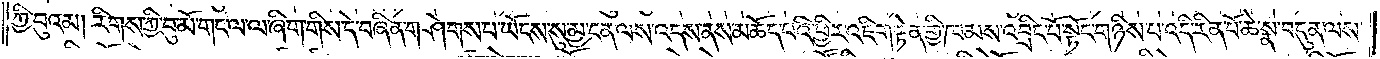ཀྱི་བུའམ། རིགས་ཀྱི་བུ་མོ་གང་ལ་ལ་ཞིག་གིས་དེ་བཞིན་གཤེགས་པ་ཡོངས་སུ་མྱ་ངན་ལས་འདས་ནས་མཆོད་པའི་ཕྱིར་འཇིག་རྟེན་གྱི་ཁམས་འབྲིང་པོ་སྟོང་གཉིས་པ་འདི་རིན་པོ་ཆེ་སྣ་བདུན་ལས་
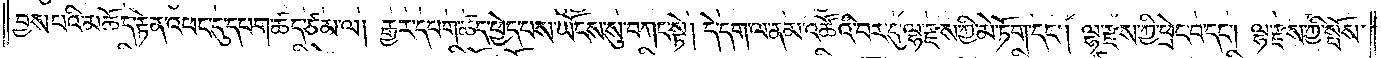བྱས་པའི་མཆོད་རྟེན་འཕང་དུ་དཔག་ཚད་ཙམ་ལ། རྒྱར་དཔག་ཚད་ཕྱེད་པས་ཡོངས་སུ་བཀང་སྟེ། དེ་དག་ལ་ནམ་འཚོའི་བར་དུ་ལྷ་རྫས་ཀྱི་མེ་ཏོག་དང༌། ལྷ་རྫས་ཀྱི་ཕྲེང་བ་དང༌། ལྷ་རྫས་ཀྱི་སྤོས་
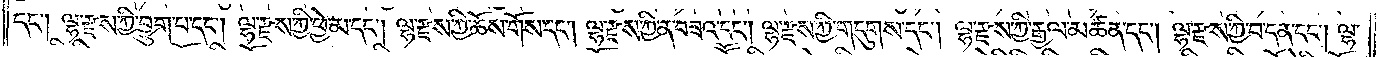དང༌། ལྷ་རྫས་ཀྱི་བྱུག་པ་དང༌། ལྷ་རྫས་ཀྱི་ཕྱེ་མ་དང༌། ལྷ་རྫས་ཀྱི་ཆོས་གོས་དང༌། ལྷ་རྫས་ཀྱི་ན་བཟའ་དང༌། ལྷ་རྫས་ཀྱི་གདུགས་དང༌། ལྷ་རྫས་ཀྱི་རྒྱལ་མཚན་དང༌། ལྷ་རྫས་ཀྱི་བ་དན་དང༌། ལྷ་
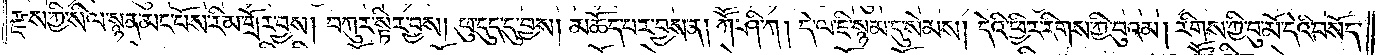རྫས་ཀྱི་སིལ་སྙན་མང་པོས་རིམ་གྲོར་བྱས། བཀུར་སྟིར་བྱས། ཕུ་དུད་དུ་བྱས། མཆོད་པར་བྱས་ན། ཀཽ་ཤི་ཀ། དེ་ལ་ཇི་སྙམ་དུ་སེམས། དེའི་ཕྱིར་རིགས་ཀྱི་བུའམ། རིགས་ཀྱི་བུ་མོ་དེའི་བསོད་
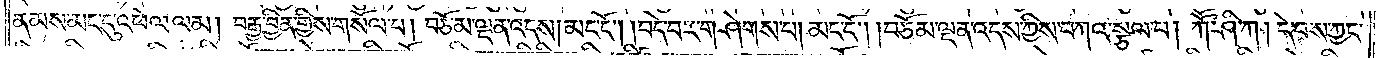ནམས་མང་དུ་འཕེལ་ལམ། བརྒྱ་བྱིན་གྱིས་གསོལ་པ། བཅོམ་ལྡན་འདས། མང་ངོ༌། །བདེ་བར་གཤེགས་པ། མང་ངོ༌། །བཅོམ་ལྡན་འདས་ཀྱིས་བཀའ་སྩལ་པ། ཀཽ་ཤི་ཀ། དེ་བས་ཀྱང་
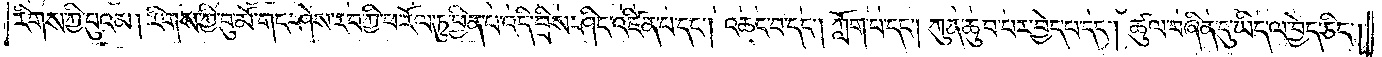རིགས་ཀྱི་བུའམ། རིགས་ཀྱི་བུ་མོ་གང་ཤེས་རབ་ཀྱི་ཕ་རོལ་ཏུ་ཕྱིན་པ་འདི་བྲིས་ཤིང་འཛིན་པ་དང༌། འཆང་བ་དང༌། ཀློག་པ་དང༌། ཀུན་ཆུབ་པར་བྱེད་པ་དང༌། ཚུལ་བཞིན་དུ་ཡིད་ལ་བྱེད་ཅིང༌།
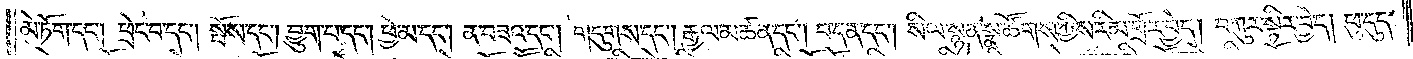མེ་ཏོག་དང༌། ཕྲེང་བ་དང༌། སྤོས་དང༌། བྱུག་པ་དང༌། ཕྱེ་མ་དང༌། ན་བཟའ་དང༌། གདུགས་དང༌། རྒྱལ་མཚན་དང༌། བ་དན་དང༌། སིལ་སྙན་སྣ་ཚོགས་ཀྱིས་རིམ་གྲོར་བྱེད། བཀུར་སྟིར་བྱེད། ཕུ་དུད་
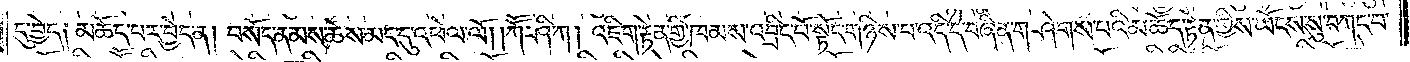དུ་བྱེད། མཆོད་པར་བྱེད་ན། བསོད་ནམས་ཆེས་མང་དུ་འཕེལ་ལོ། །ཀཽ་ཤི་ཀ། འཇིག་རྟེན་གྱི་ཁམས་འབྲིང་པོ་སྟོང་གཉིས་པ་འདི་དེ་བཞིན་གཤེགས་པའི་མཆོད་རྟེན་གྱིས་ཡོངས་སུ་བཀང་བ་
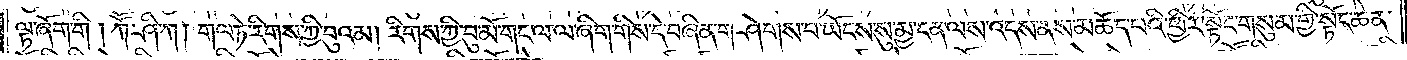ལྟ་ཞོག་གི །ཀཽ་ཤི་ཀ། གལ་ཏེ་རིགས་ཀྱི་བུའམ། རིགས་ཀྱི་བུ་མོ་གང་ལ་ལ་ཞིག་གིས་དེ་བཞིན་གཤེགས་པ་ཡོངས་སུ་མྱ་ངན་ལས་འདས་ནས་མཆོད་པའི་ཕྱིར་སྟོང་གསུམ་གྱི་སྟོང་ཆེན་
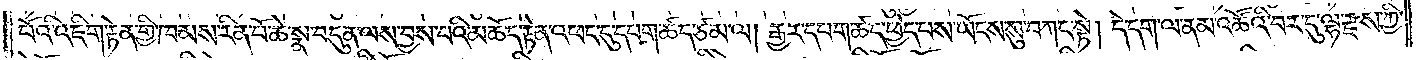པོའི་འཇིག་རྟེན་གྱི་ཁམས་རིན་པོ་ཆེ་སྣ་བདུན་ལས་བྱས་པའི་མཆོད་རྟེན་འཕང་དུ་དཔག་ཚད་ཙམ་ལ། རྒྱར་དཔག་ཚད་ཕྱེད་པས་ཡོངས་སུ་བཀང་སྟེ། དེ་དག་ལ་ནམ་འཚོའི་བར་དུ་ལྷ་རྫས་ཀྱི་
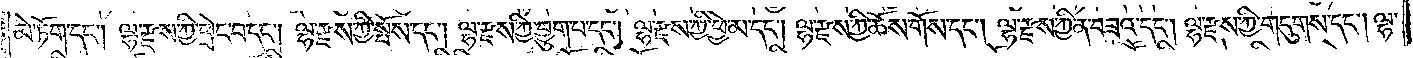མེ་ཏོག་དང༌། ལྷ་རྫས་ཀྱི་ཕྲེང་བ་དང༌། ལྷ་རྫས་ཀྱི་སྤོས་དང༌། ལྷ་རྫས་ཀྱི་བྱུག་པ་དང༌། ལྷ་རྫས་ཀྱི་ཕྱེ་མ་དང༌། ལྷ་རྫས་ཀྱི་ཆོས་གོས་དང༌། ལྷ་རྫས་ཀྱི་ན་བཟའ་དང༌། ལྷ་རྫས་ཀྱི་གདུགས་དང༌། ལྷ་
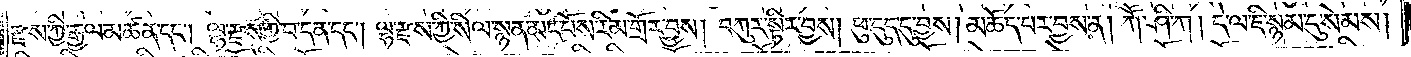རྫས་ཀྱི་རྒྱལ་མཚན་དང༌། ལྷ་རྫས་ཀྱི་བ་དན་དང༌། ལྷ་རྫས་ཀྱི་སིལ་སྙན་མང་པོས་རིམ་གྲོར་བྱས། བཀུར་སྟིར་བྱས། ཕུ་དུད་དུ་བྱས། མཆོད་པར་བྱས་ན། ཀཽ་ཤི་ཀ། དེ་ལ་ཇི་སྙམ་དུ་སེམས།
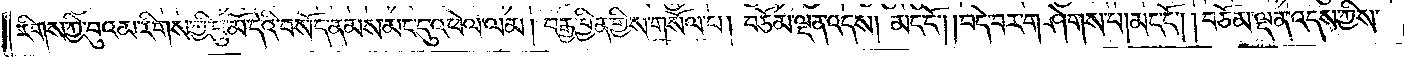རིགས་ཀྱི་བུའམ་རིགས་ཀྱི་བུ་མོ་དེའི་བསོད་ནམས་མང་དུ་འཕེལ་ལམ། བརྒྱ་བྱིན་གྱིས་གསོལ་པ། བཅོམ་ལྡན་འདས། མང་ངོ༌། །བདེ་བར་གཤེགས་པ། མང་ངོ༌། །བཅོམ་ལྡན་འདས་ཀྱིས།
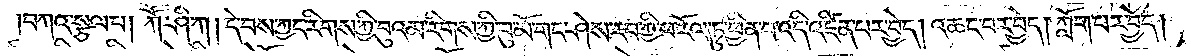བཀའ་སྩལ་པ། ཀཽ་ཤི་ཀ། དེ་བས་ཀྱང་རིགས་ཀྱི་བུ་འམ་རིགས་ཀྱི་བུ་མོ་གང་ཤེས་རབ་ཀྱི་ཕ་རོལ་ཏུ་ཕྱིན་པ་འདི་འཛིན་པར་བྱེད། འཆང་བར་བྱེད། ཀློག་པར་བྱེད།
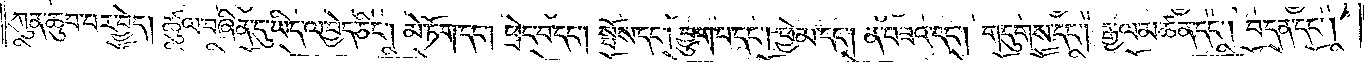ཀུན་ཆུབ་པར་བྱེད། ཚུལ་བཞིན་དུ་ཡིད་ལ་བྱེད་ཅིང༌། མེ་ཏོག་དང༌། ཕྲེང་བ་དང༌། སྤོས་དང༌། བྱུག་པ་དང༌། ཕྱེ་མ་དང༌། ན་བཟའ་དང༌། གདུགས་དང༌། རྒྱལ་མཚན་དང༌། བ་དན་དང༌།
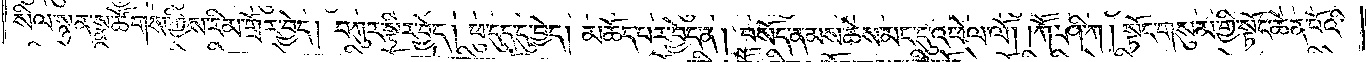སིལ་སྙན་སྣ་ཚོགས་ཀྱིས་རིམ་གྲོར་བྱེད། བཀུར་སྟིར་བྱེད། ཕུ་དུད་དུ་བྱེད། མཆོད་པར་བྱེད་ན། བསོད་ནམས་ཆེས་མང་དུ་འཕེལ་ལོ། །ཀཽ་ཤི་ཀ། སྟོང་གསུམ་གྱི་སྟོང་ཆེན་པོའི་
